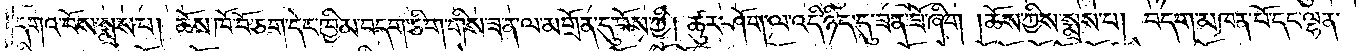དགའ་བོས་སྨྲས་པ། ཆོས་ཁོ་བོ་ཅག་དེང་ཁྱིམ་བདག་ཅིག་གིས་ཟན་ལ་མགྲོན་དུ་བོས་ཀྱི། ཚུར་ཤོག་ལ་འདི་ཉིད་དུ་ཟན་ཟོ་ཞིག །ཆོས་ཀྱིས་སྨྲས་པ། བདག་མཁན་པོ་དང་ལྷན་
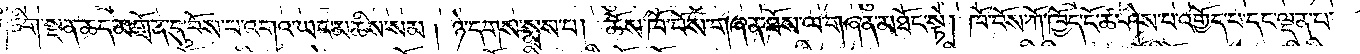ཅིག་སྔན་ཆད་མགྲོན་དུ་བོས་པ་འགའ་ཡང་མཆིས་སམ། ཉེ་དགས་སྨྲས་པ། ཆོས་ཁོ་བོས་གཞན་ཐོས་ལ་གཞན་མཐོང་སྟེ། ཁོ་བོས་ཀོ་ཁྱོད་ངོ་ཚ་ཤེས་པ་འགྱོད་པ་དང་ལྡན་པ་
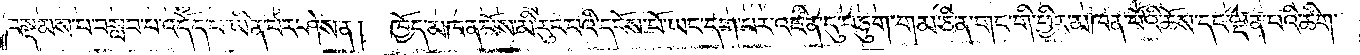བསྡམས་པ་བསླབ་པ་འདོད་པ་ཡིན་པར་ཤེས་ན། ཁྱོད་མཁན་པོས་མི་རུང་བའི་དངོས་པོ་ཡང་དག་པར་འཛིན་དུ་བཅུག་གམ་ཅི་ན་གང་གི་ཕྱིར་མཁན་པོའི་ཆོས་དང་ལྡན་པའི་ཚིག་
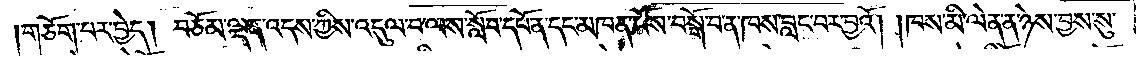གཅོག་པར་བྱེད། བཅོམ་ལྡན་འདས་ཀྱིས་འདུལ་བ་ལས་སློབ་དཔོན་དང་མཁན་པོས་བསྒོ་བ་ན་ཁས་བླང་བར་བྱའོ། །ཁས་མི་ལེན་ན་ཉེས་བྱས་སུ་
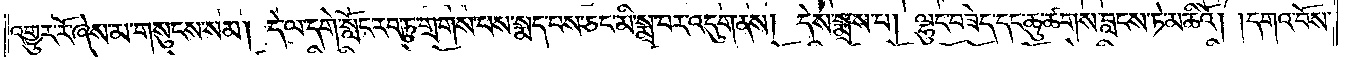འགྱུར་རོ་ཞེས་མ་གསུངས་སམ། དེ་ལ་དགེ་སློང་རབ་ཏུ་གྲགས་པས་སྨད་པས་ཅང་མི་སྨྲ་བར་འདུག་ནས། དེས་སྨྲས་པ། ལྷུང་བཟེད་དང་ཆུ་ཚགས་བླངས་ཏེ་མཆིའོ། །དགའ་བོས་
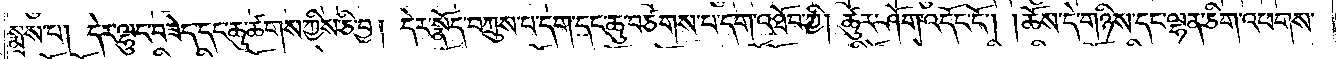སྨྲས་པ། དེར་ལྷུང་བཟེད་དང་ཆུ་ཚགས་ཀྱིས་ཅི་བྱ། དེར་སྣོད་བཀྲུས་པ་དག་དང་ཆུ་བཙགས་པ་དག་འཐོབ་ཀྱི། ཚུར་ཤོག་འདོང་ངོ༌། །ཆོས་དེ་གཉིས་དང་ལྷན་ཅིག་འཕགས་
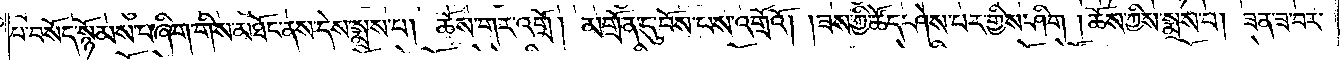པ་བསོད་སྙོམས་པ་ཞིག་གིས་མཐོང་ནས་དེས་སྨྲས་པ། ཆོས་གར་འགྲོ། མགྲོན་དུ་བོས་པས་འགྲོའོ། །ཟས་ཀྱི་ཚོད་ཤེས་པར་གྱིས་ཤིག །ཆོས་ཀྱིས་སྨྲས་པ། ཟན་ཟ་བར་
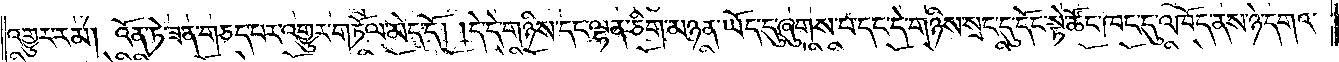འགྱུར་རམ། འོན་ཏེ་ཟན་གཅད་པར་འགྱུར་གཏོལ་མེད་དོ། །དེ་དེ་གཉིས་དང་ལྷན་ཅིག་མཉན་ཡོད་དུ་ཞུགས་པ་དང་དེ་གཉིས་སྲང་དུ་དོང་སྟེ་ཚོང་ཁང་དུ་འཁོད་ནས་ཉེ་དགའ་
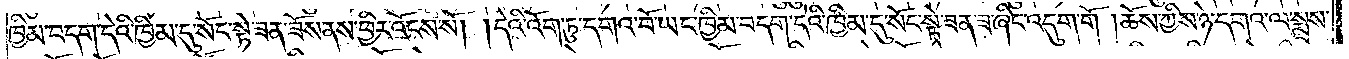ཁྱིམ་བདག་དེའི་ཁྱིམ་དུ་སོང་སྟེ་ཟན་ཟོས་ནས་ཕྱིར་འོངས་སོ། །དེའི་འོག་ཏུ་དགའ་བོ་ཡང་ཁྱིམ་བདག་དེའི་ཁྱིམ་དུ་སོང་སྟེ་ཟན་ཟ་ཞིང་འདུག་གོ །ཆོས་ཀྱིས་ཉེ་དགའ་ལ་སྨྲས་
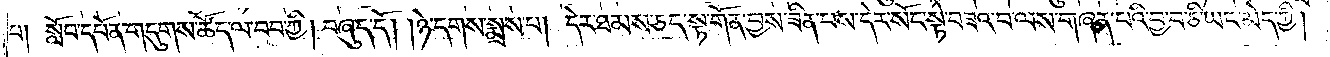པ། སློབ་དཔོན་གདུགས་ཚོད་ལ་བབ་ཀྱི། བཞུད་དོ། །ཉེ་དགས་སྨྲས་པ། དེར་ཐམས་ཅད་སྟ་གོན་བྱས་ཟིན་པས་དེར་སོང་སྟེ་བཟའ་བ་ལས་གཞན་པའི་བྱ་བ་ཅི་ཡང་མེད་ཀྱི།
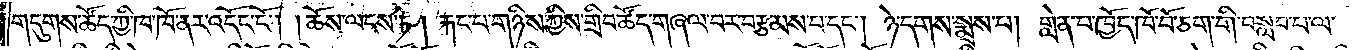གདུགས་ཚོད་ཀྱི་ཁ་ཁོ་ནར་འདོང་ངོ༌། །ཆོས་ལངས་ཏེ། རྐང་པ་གཉིས་ཀྱིས་གྲིབ་ཚོད་གཞལ་བར་བརྩམས་པ་དང༌། ཉེ་དགས་སྨྲས་པ། གླེན་པ་ཁྱོད་ཁོ་བོ་ཅག་གི་བསླབ་པ་ལ་
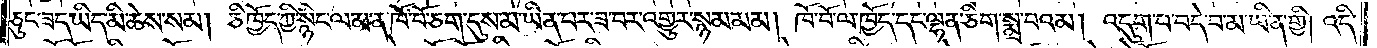ཅུང་ཟད་ཡིད་མི་ཆེས་སམ། ཅི་ཁྱོད་ཀྱི་སྙིང་ལམ་ན་ཁོ་བོ་ཅག་དུས་མ་ཡིན་པར་ཟ་བར་འགྱུར་སྙམ་མམ། ཁོ་བོ་ལ་ཁྱོད་དང་ལྷན་ཅིག་སྨྲ་བའམ། འདུག་པ་བདེ་བ་མ་ཡིན་གྱི། འདི་
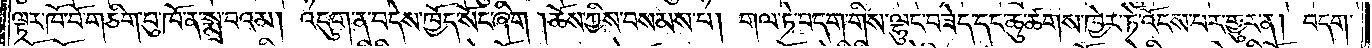ལྟར་ཁོ་བོ་གཅིག་པུ་ཁོ་ན་སྨྲ་བའམ། འདུག་ན་བདེས་ཁྱོད་སོང་ཞིག །ཆོས་ཀྱིས་བསམས་པ། གལ་ཏེ་བདག་གིས་ལྷུང་བཟེད་དང་ཆུ་ཚགས་ཁྱེར་ཏེ་འོངས་པར་གྱུར་ན། བདག་
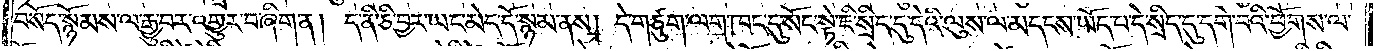བསོད་སྙོམས་ལ་རྒྱུ་བར་འགྱུར་བ་ཞིག་ན། ད་ནི་ཅི་བྱར་ཡང་མེད་དོ་སྙམ་ནས། དེ་གཙུག་ལག་ཁང་དུ་སོང་སྟེ་ཇི་སྲིད་དུ་དེའི་ལུས་ལ་མདངས་ཡོད་པ་དེ་སྲིད་དུ་དགེ་བའི་ཕྱོགས་ལ་
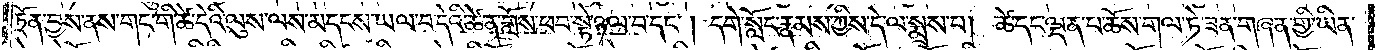ཏྲོན་བྱས་ནས་གང་གི་ཚེ་དེའི་ལུས་ལས་མདངས་ཡལ་བ་དེའི་ཚེ་ན་གློས་ཕབ་སྟེ་ཉལ་བ་དང༌། དགེ་སློང་རྣམས་ཀྱིས་དེ་ལ་སྨྲས་པ། ཚེ་དང་ལྡན་པ་ཆོས་གལ་ཏེ་ཟན་གཞན་གྱི་ཡིན་
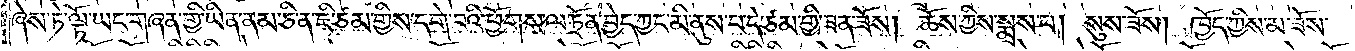ཞེས་ཏེ་ལྟོ་ཡང་གཞན་གྱི་ཡིན་ནམ་ཅི་ན་ཇི་ཙམ་གྱིས་དགེ་བའི་ཕྱོགས་ལ་ཏྲོན་བྱེད་ཀྱང་མི་ནུས་པ་དེ་ཙམ་གྱི་ཟན་ཟོས། ཆོས་ཀྱིས་སྨྲས་པ། སུས་ཟོས། ཁྱོད་ཀྱིས་མ་ཟོས་
